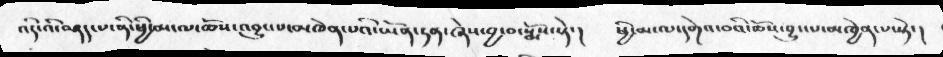འདི་འི་བཤད་པ་ནི་ཕྱི་མ་ལ་ཆོས་འབྱུང་པ་མཁེན་པའི་ཡོན་ཏན་ཞེས་བྱ་བ་སྨོས་སྟེ་།  ཕྱི་མ་ལ་དགེའ་བའི་ཆོས་བྱུང་པ་མཁྱེན་པ་སྟེ་།
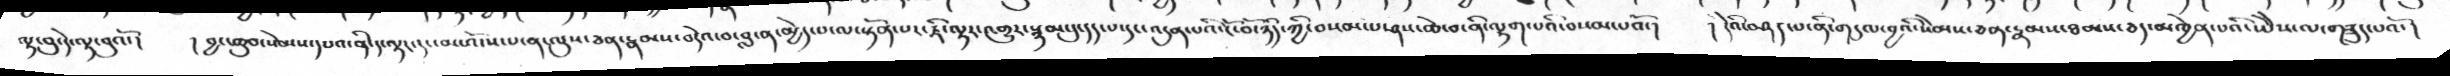ལྟ་བུ་དེ་ལྟ་བུའོ་།  ། བྱང་ཆུབ་སེམས་དཔའ་ནི་ད་ལྟར་དང་མ་འོངས་པ་ན་ལུས་ཅན་རྣམས་བདེའ་བ་བླ་ན་མྱེད་པ་ལ་སྟོན་པར་ཇི་ལྟར་འགྱུར་སྙམ་དུ་དད་པ་དང་འདུན་པའི་ངོ་བོ་ཉིད་ཀྱི་བསམ་པ་ཤས་ཆེ་བ་ནི་ལྷག་པའི་བསམ་པའོ་།  ། དེའི་བཤད་པ་ནི་གདུལ་བྱའི་སེམས་ཅན་རྣམས་ཐམས་ཅད་མཁྱེན་པའི་ཡཻས་ལ་གཟུད་པའོ་།
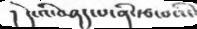། དེ་འི་བཤད་པ་ནི་རྩ་བའི་
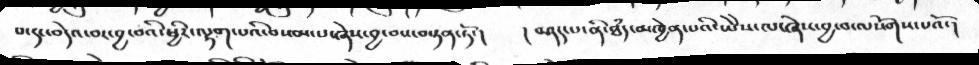པ་དང་བདེའ་བར་བྱ་བའི་ཕྱིར་ལྷག་པའི་བསམ་པ་ཞེས་བྱ་བས་བསྟན་ཏོ་།   ། བཤད་པ་ནི་ཐཾད་མཁྱེན་པའི་ཡཻས་ལ་ཞེས་བྱ་བ་ལསོགས་པའོ་།
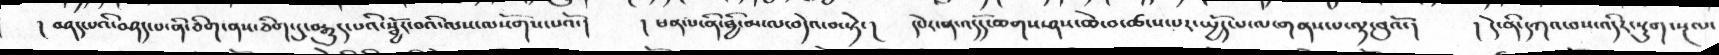།  བཤད་པའི་བཤད་པ་ནི་ཅིག་ནས་ཅིག་དུ་བརྒྱུད་པའི་སྦྱོར་བའི་ལས་ལསོགས་པའོ་།    ། ཕན་པ་ནི་ཕྱི་མ་ལ་བདེའ་བ་སྟེ་།   དཔེར་ན་འདོད་ཆགས་ཤས་ཆེ་བ་ཚངས་པར་སྤྱོད་པ་ལ་གནས་པ་ལྟ་བུའོ་།    །  དེ་ནི་དཀའ་བས་འདིར་སྡུག་སྔལ་
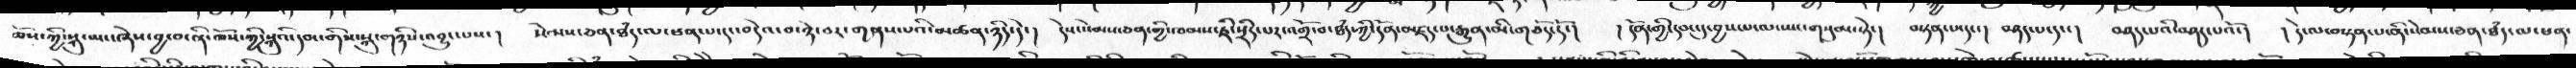ཆོས་ཀྱི་སྐུ་ལ་ཞེས་བྱ་བ་ནི་ཆོས་ཀྱི་སྐུའི་དབང་གིས་སྐུ་གཉིས་འབྱུང་པས་།     སེམས་ཅན་ཐཾད་ལ་ཕན་པ་དང་བདེའ་བ་ཉེ་བར་གནས་པའི་མཚན་ཉིད་དེ་།   དེས་སེམས་ཅན་གྱི་ཁམས་ཇི་སྲིད་པར་འགྲོ་བ་ཐཾད་ཀྱི་དོན་མཛད་པ་རྒྱུན་མི་གཅོད་དོ་།    ། དོན་གྱི་དབང་དུ་བྱས་པ་ལ་ཡང་གསུམ་སྟེ་།  བསྟན་པ་དང་།   བཤད་པ་དང་།  བཤད་པའི་བཤད་པའོ་།   ། དེ་ལ་བསྟན་པ་ནི་སེམས་ཅན་ཐཾད་ལ་ཕན་
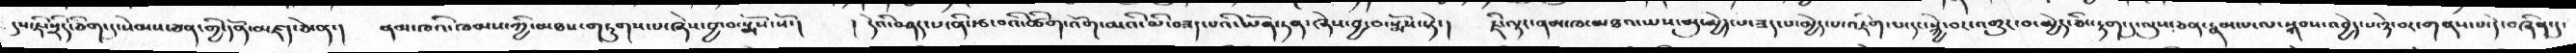དུས་ཇི་སྲིད་ཅིག་དུ་སེམས་ཅན་གྱི་དོན་མཛད་ཅེ་ན་།   ནམ་ཁའི་ཁམས་ཀྱི་མཐའ་གཏུགས་པ་ཞེས་བྱ་བ་སྨོས་སོ་།   །  དེའི་བཤད་པ་ནི་རྩ་བའི་ཚིག་འོག་མའི་མི་བཟད་པའི་ཡོན་ཏན་ཞེས་བྱ་བ་སྨོས་སྟེ་།   ཇི་ལྟར་ནམ་ཁ་མཐའ་ཡས་མུ་མྱེད་པ་ཟད་པ་མྱེད་པ་འཇིག་པ་དང་སྐྱེ་བར་འགྱུར་བ་མྱེད་ཅིང་རྟག་དུ་ལུས་ཅན་རྣམ་པ་ལ་སྐབས་འབྱེད་པ་ཉེ་བར་གནས་པ་དེ་བཞིན་དུ་
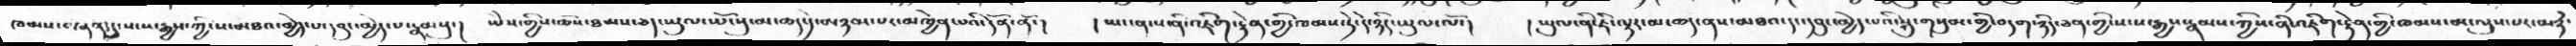ཁམས་གཞན་དུ་སངས་རྒྱས་ཀྱི་ས་མཐའ་མྱེད་པ་དབུ་མྱེད་པ་རྣམས་།  ཡཻས་གྱིས་ཆོས་ཐམས་ཅད་ཡུལ་ཡོངསུ་མ་ཆད་དེ་མཉམ་པར་མཁྱེན་པའི་དོན་ནོ་།  །ཡང་ན་ས་ནི་འཇིག་རྟེན་ཀྱི་ཁམས་ཏེ་དེ་ཉིད་ཡུལ་ལོ་།  །ཡུལ་ནི་ཇི་ལྟར་མ་ཆད་ནས་མཐའ་དང་དབུ་མྱེད་པའི་སྐུ་གསུམ་གྱི་བདག་ཉིད་ཅན་གྱི་སངས་རྒྱས་རྣམས་ཀྱིས་ནི་འཇིག་རྟེན་གྱི་ཁམས་མ་ལུས་པར་མཉཾ་
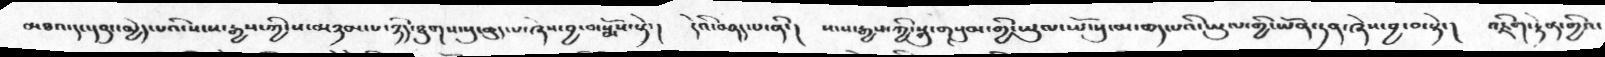མཐའ་དང་དབུ་་མྱེད་པའི་སངས་རྒྱས་ཀྱི་ས་མཉམ་པ་ཉིད་ཐུགས་སུ་ཆུད་པ་ཞེས་བྱ་བ་སྨོས་སྟེ་།   དེའི་བཤད་པ་ནི་།  སངས་རྒྱས་ཀྱི་སྐུ་གསུམ་གྱི་ཡུལ་ཡོངསུ་མ་ཆད་པའི་ཡུལ་ཀྱི་ཡོན་ཏན་ཞེས་བྱ་བ་སྟེ་།   འཇིག་རྟེན་གྱིའ་
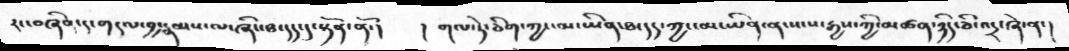རང་བཞིན་དུ་གདུལ་བྱ་རྣམས་ལ་ཞིང་ཐ་དད་དུ་སྟོན་ནོ་།  ། གལ་ཏེ་ཅིག་ཀྱང་མ་ཡིན་ཐ་དད་ཀྱང་མ་ཡིན་ན་སངས་རྒྱས་ཀྱི་མཚན་ཉིད་ཅི་འདྲ་ཞེ་ན་།
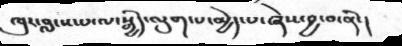ཁུར་བླངས་པ་ལ་སྒྱིད་ལུག་པ་མྱེད་པ་ཞེས་བྱ་བ་ནི་།
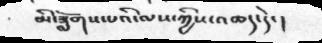མི་ཟློགས་པའི་ལས་ཀྱིས་འཆད་དེ་།
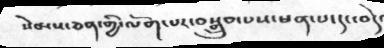སེམས་ཅན་གྱི་ལོག་པར་བསྒྲུབ་པས་ཕན་པ་དང་བདེ
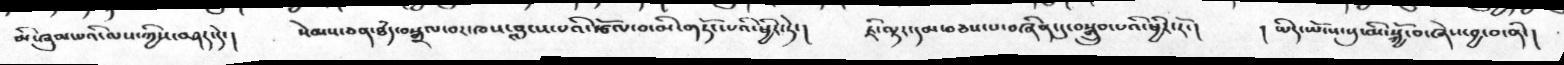མི་ཞུམ་པའི་ལས་ཀྱིས་བཤད་དེ་།   སེམས་ཅན་ཐཾད་བསྒྲལ་བར་ཁས་བླངས་པའི་རྩོལ་བ་མི་གཏོང་པའི་ཕྱིར་ཏེ་།  ཇི་ལྟར་དམ་བཅས་པ་བཞིན་དུ་བསྒྲུབ་པའི་ཕྱིར་རོ་།    ། ཡིད་ཡོངས་སུ་མི་སྐྱོ་བ་ཞེས་བྱ་བ་ནི་།
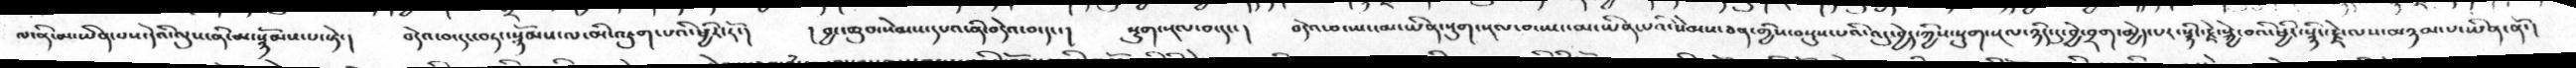ལ་ནི་མ་ཡིན་པས་དེའི་ལུས་ནི་མ་སྙོམས་པ་སྟེ་།    བདེའ་བ་དང་བཏང་སྙོམས་ལ་མི་འཇུག་པའི་ཕྱིར་རོ་།   ། བྱང་ཆུབ་སེམས་དཔའ་ནི་བདེའ་བ་དང་།   སྡུག་སྔལ་བ་དང་།   བདེའ་བ་ཡང་མ་ཡིན་སྡུག་སྔལ་བ་ཡང་མ་ཡིན་པའི་སེམས་ཅན་གྱིས་བསྡུས་པའི་འདུ་བྱེད་ཀྱིས་སྡུག་སྔལ་ཉིད་དུ་བྱེ་བྲག་མྱེད་པར་སྙིང་རྗེ་སྐྱེ་བའི་ཕྱིར་སྙིང་རྗེ་ལས་མཉམ་པ་ཡིན་ནོ་།
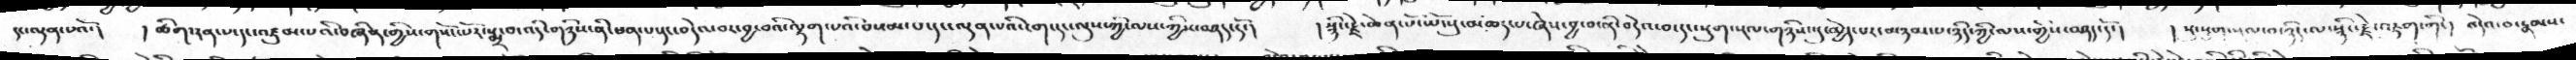དང་ལྡན་པའོ་།   །ཚིག་རན་པ་དང་འཛུམ་པའི་བཞིན་གྱིས་གསོང་པོར་སྨྲ་བ་འདི་གཉིས་ནི་ཕན་པ་དང་བདེའ་བར་བྱ་བའི་ལྷག་པའི་སེམས་པ་དང་ལྡན་པའི་ངག་དང་ལུས་ཀྱི་ལས་ཀྱིས་བཤད་དོ་།  སྙིང་རྗེ་ཆེན་པོ་ཡོངསུ་མཆད་པ་ཞེས་བྱ་བ་ནི་བདེའ་བ་དང་སྡུག་སྔལ་གཉིས་སུ་མྱེད་པར་མཉམ་པ་ཉིད་ཀྱི་ལས་གྱིས་བཤད་དོ་།  །སུ་སྡུག་སྔལ་བ་ཉིད་ལ་སྙིང་རྗེ་འཇུག་གི་།  བདེའ་བ་རྣམས་
